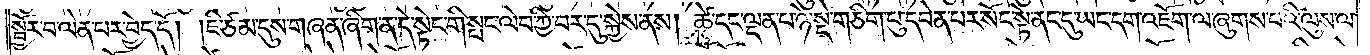སྦྱོར་བ་ལེན་པ་བྱེད་དོ། །ཇི་ཙམ་དུས་གཞན་ཞིག་ན་དེ་སྟེང་གི་སྤང་ལེབ་ཀྱི་བར་དུ་སྐྱེས་ནས། ཚེ་དང་ལྡན་པ་ཉེ་སྡེ་གཅིག་པུ་དབེན་པར་སོང་སྟེ་ནང་དུ་ཡང་དག་འཇོག་ལ་ཞུགས་པའི་ལུས་ལ་
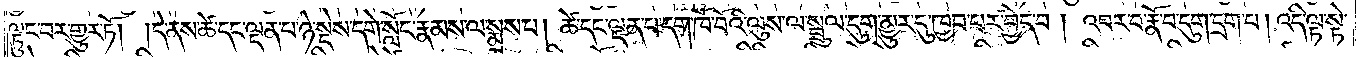ལྟུང་བར་གྱུར་ཏོ། །དེ་ནས་ཚེ་དང་ལྡན་པ་ཉེ་སྡེས་དགེ་སློང་རྣམས་ལ་སྨྲས་པ། ཚེ་དང་ལྡན་པ་དག་ཁོ་བོའི་ལུས་ལ་སྦྲུལ་དུག་མྱུར་དུ་ཁྱབ་པར་བྱེད་པ། འབར་བ་རྣོ་བ་དུག་དྲག་པ། འདི་ལྟ་སྟེ་
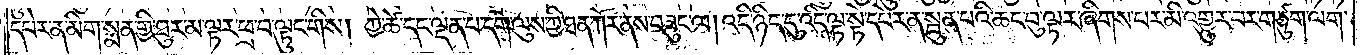དཔེར་ན་མིག་སྨན་གྱི་ཐུར་མ་ལྟར་ཕྲ་བ་ལྟུང་གིས། ཀྱེ་ཚེ་དང་ལྡན་པ་དག་ལུས་ཀྱི་ཐན་ཀོར་ནས་བཟུང་ལ། འདི་ཉིད་དུ་འདི་ལྟ་སྟེ་དཔེར་ན་སྦུན་པའི་ཆང་བུ་ལྟར་ཞིགས་པར་མི་འགྱུར་བར་གཙུག་ལག་
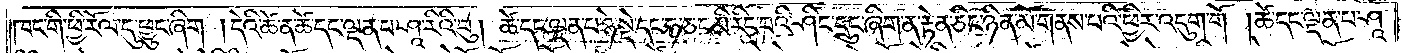ཁང་གི་ཕྱི་རོལ་དུ་ཕྱུང་ཞིག །དེའི་ཚེ་ན་ཚེ་དང་ལྡན་པ་ཤཱ་རིའི་བུ། ཚེ་དང་ལྡན་པ་ཉེ་སྡེ་དང་ཧ་ཅང་མི་རིང་བའི་ཤིང་དྲུང་ཞིག་ན་རྟེན་ཅིང་ཉིན་མོ་གནས་པའི་ཕྱིར་འདུག་གོ །ཚེ་དང་ལྡན་པ་ཤཱ་
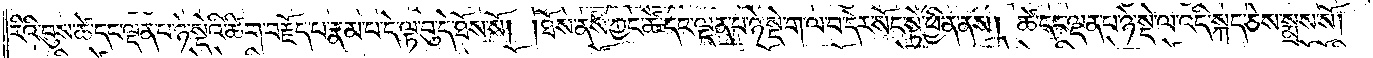རིའི་བུས་ཚེ་དང་ལྡན་པ་ཉེ་སྡེའི་ཚིག་བརྗོད་པ་རྣམ་པ་དེ་ལྟ་བུ་དེ་ཐོས་སོ། །ཐོས་ནས་ཀྱང་ཚེ་དང་ལྡན་པ་ཉེ་སྡེ་ག་ལ་བ་དེར་སོང་སྟེ་ཕྱིན་ནས། ཚེ་དང་ལྡན་པ་ཉེ་སྡེ་ལ་འདི་སྐད་ཅེས་སྨྲས་སོ། །
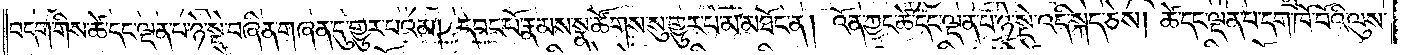བདག་གིས་ཚེ་དང་ལྡན་པ་ཉེ་སྡེ་བཞིན་གཞན་དུ་གྱུར་པའམ། དབང་པོ་རྣམས་སྣ་ཚོགས་སུ་གྱུར་པ་མ་མཐོང་ན། འོན་ཀྱང་ཚེ་དང་ལྡན་པ་ཉེ་སྡེ་འདི་སྐད་ཅེས། ཚེ་དང་ལྡན་པ་དག་ཁོ་བོའི་ལུས་
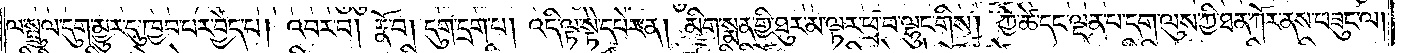ལ་སྦྲུལ་དུག་མྱུར་དུ་ཁྱབ་པར་བྱེད་པ། འབར་བ། རྣོ་བ། དུག་དྲག་པ། འདི་ལྟ་སྟེ་དཔེར་ན། མིག་སྨན་གྱི་ཐུར་མ་ལྟར་ཕྲ་བ་ལྷུང་གིས། ཀྱེ་ཚེ་དང་ལྡན་པ་དག་ལུས་ཀྱི་ཐན་ཀོར་ནས་བཟུང་ལ།
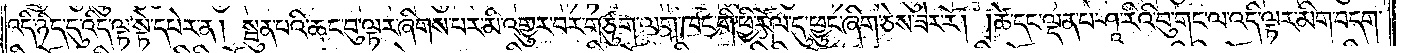འདི་ཉིད་དུ་འདི་ལྟ་སྟེ་དཔེར་ན། སྦུན་པའི་ཆང་བུ་ལྟར་ཞིགས་པར་མི་འགྱུར་བར་གཙུག་ལག་ཁང་གི་ཕྱི་རོལ་དུ་ཕྱུང་ཞིག་ཅེས་ཟེར་རོ། །ཚེ་དང་ལྡན་པ་ཤཱ་རིའི་བུ་གང་ལ་འདི་ལྟར་མིག་བདག་
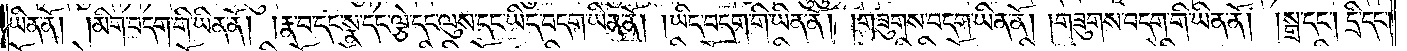ཡིན་ནོ། །མིག་བདག་གི་ཡིན་ནོ། །རྣ་བ་དང་སྣ་དང་ལྕེ་དང་ལུས་དང་ཡིད་བདག་ཡིན་ནོ། །ཡིད་བདག་གི་ཡིན་ནོ། །གཟུགས་བདག་ཡིན་ནོ། །གཟུགས་བདག་གི་ཡིན་ནོ། །སྒྲ་དང༌། དྲི་དང༌།
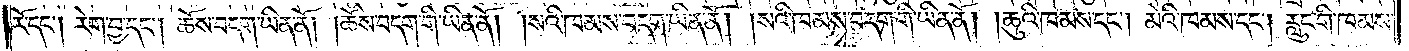རོ་དང༌། རེག་བྱ་དང༌། ཆོས་བདག་ཡིན་ནོ། །ཆོས་བདག་གི་ཡིན་ནོ། །སའི་ཁམས་བདག་ཡིན་ནོ། །སའི་ཁམས་བདག་གི་ཡིན་ནོ། །ཆུའི་ཁམས་དང༌། མེའི་ཁམས་དང༌། རླུང་གི་ཁམས་
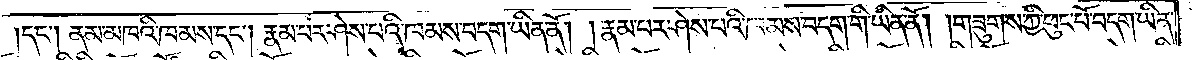དང༌། ནམ་མཁའི་ཁམས་དང༌། རྣམ་པར་ཤེས་པའི་ཁམས་བདག་ཡིན་ནོ། །རྣམ་པར་ཤེས་པའི་ཁམས་བདག་གི་ཡིན་ནོ། །གཟུགས་ཀྱི་ཕུང་པོ་བདག་ཡིན་
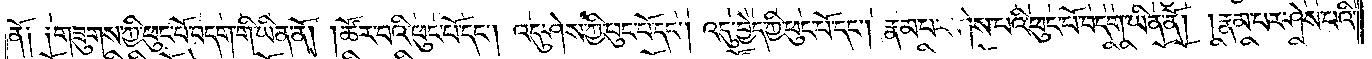ནོ༑ ༑གཟུགས་ཀྱི་ཕུང་པོ་བདག་གི་ཡིན་ནོ། །ཚོར་བའི་ཕུང་པོ་དང༌། འདུ་ཤེས་ཀྱི་ཕུང་པོ་དང༌། འདུ་བྱེད་ཀྱི་ཕུང་པོ་དང༌། རྣམ་པར་ཤེས་པའི་ཕུང་པོ་བདག་ཡིན་ནོ། །རྣམ་པར་ཤེས་པའི་
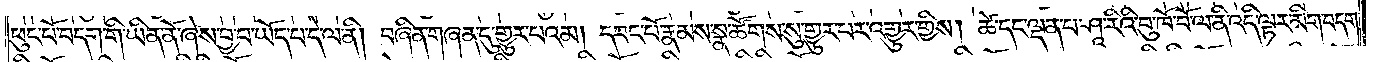ཕུང་པོ་བདག་གི་ཡིན་ནོ་ཞེས་བྱ་བ་ཡོད་པ་དེ་ལ་ནི། བཞིན་གཞན་དུ་གྱུར་པའམ། དབང་པོ་རྣམས་སྣ་ཚོགས་སུ་གྱུར་པར་འགྱུར་གྱིས། ཚེ་དང་ལྡན་པ་ཤཱ་རིའི་བུ་ཁོ་བོ་ལ་ནི་འདི་ལྟར་མིག་བདག་
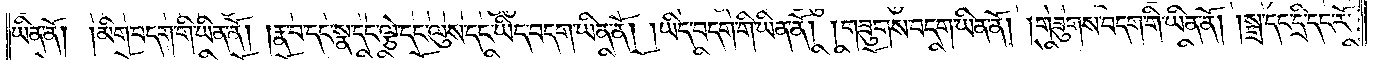ཡིན་ནོ། །མིག་བདག་གི་ཡིན་ནོ། །རྣ་བ་དང་སྣ་དང་ལྕེ་དང་ལུས་དང་ཡིད་བདག་ཡིན་ནོ། །ཡིད་བདག་གི་ཡིན་ནོ། །གཟུགས་བདག་ཡིན་ནོ། །གཟུགས་བདག་གི་ཡིན་ནོ། །སྒྲ་དང་དྲི་དང་རོ་
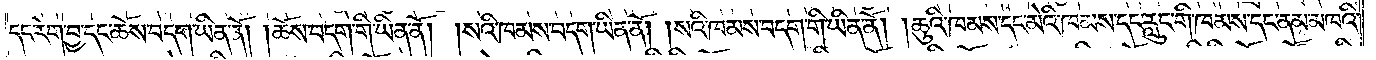དང་རེག་བྱ་དང་ཆོས་བདག་ཡིན་ནོ། །ཆོས་བདག་གི་ཡིན་ནོ། །སའི་ཁམས་བདག་ཡིན་ནོ། །སའི་ཁམས་བདག་གི་ཡིན་ནོ། །ཆུའི་ཁམས་དང་མེའི་ཁམས་དང་རླུང་གི་ཁམས་དང་ནམ་མཁའི་
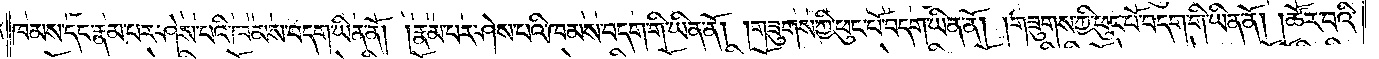ཁམས་དང་རྣམ་པར་ཤེས་པའི་ཁམས་བདག་ཡིན་ནོ། །རྣམ་པར་ཤེས་པའི་ཁམས་བདག་གི་ཡིན་ནོ། །གཟུགས་ཀྱི་ཕུང་པོ་བདག་ཡིན་ནོ། །གཟུགས་ཀྱི་ཕུང་པོ་བདག་གི་ཡིན་ནོ། །ཚོར་བའི་
